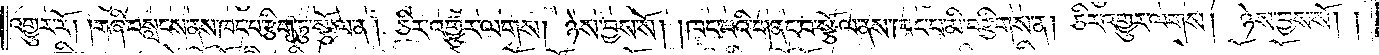འགྱུར་རོ། །གཞི་བསླངས་ནས་ཁང་པ་རྩིག་ཏུ་སྩོལ་ན། ཅིར་འགྱུར་ལགས། ཉེས་བྱས་སོ། །ཁང་པའི་གནང་བ་སྩོལ་ནས་ཁང་པ་མི་བརྩིགས་ན། ཅིར་འགྱུར་ལགས། ཉེས་བྱས་སོ། །
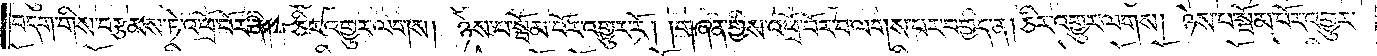བདག་གིས་བརྩམས་ཏེ་འཕྲོ་བོར་ན། ཅིར་འགྱུར་ལགས། ཉེས་པ་སྦོམ་པོར་འགྱུར་རོ། །གཞན་གྱིས་འཕྲོ་བོར་བ་ལགས་པར་བགྱིད་ན། ཅིར་འགྱུར་ལགས། ཉེས་པ་སྦོམ་པོར་འགྱུར་
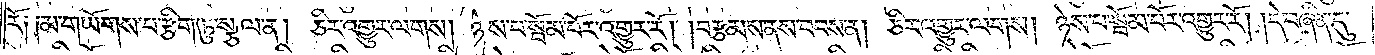རོ༑ ༑མ་གཡོགས་པ་རྩིག་ཏུ་སྩལ་ན། ཅིར་འགྱུར་ལགས། ཉེས་པ་སྦོམ་པོར་འགྱུར་རོ། །བརྩམས་ནས་བབས་ན། ཅིར་འགྱུར་ལགས། ཉེས་པ་སྦོམ་པོར་འགྱུར་རོ། །དེ་བཞིན་དུ་
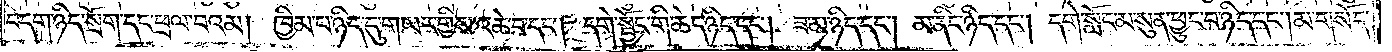བདག་ཉིད་སྲོག་དང་ཕྲལ་བའམ། ཁྱིམ་པ་ཉིད་དུ་གཡར་གྱིས་འཆེ་བ་དང༌། དགེ་སྦྱོང་གི་ཆེད་ཉིད་དང༌། ཟ་མ་ཉིད་དང༌། མ་ནིང་ཉིད་དང༌། དགེ་སློང་མ་སུན་ཕྱུང་བ་ཉིད་དང༌། མ་གསོད་
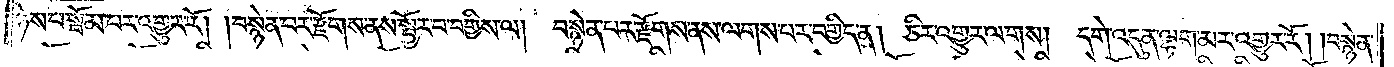ཉེས་པ་སྦོམ་པར་འགྱུར་རོ། །བསྙེན་པར་རྫོགས་ནས་སྦྱོར་བ་བགྱིས་ལ། བསྙེན་པར་རྫོགས་ནས་ལགས་པར་བགྱིད་ན། ཅིར་འགྱུར་ལགས། དགེ་འདུན་ལྷག་མར་འགྱུར་རོ། །བསྙེན་
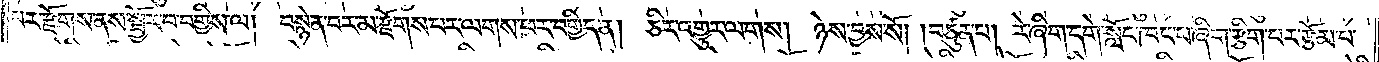པར་རྫོགས་ནས་སྦྱོར་བ་བགྱིས་ལ། བསྙེན་པར་མ་རྫོགས་པར་ལགས་ཕར་བགྱིད་ན། ཅིར་འགྱུར་ལགས། ཉེས་བྱས་སོ། །བཙུན་པ། རེ་ཞིག་དགེ་སློང་ཁང་པ་ཞིག་རྩིག་པར་རྩོམ་པ་
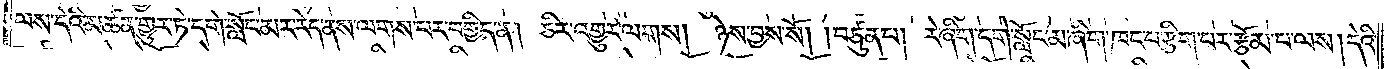ལས་དེའི་མཚན་གྱུར་ཏེ་དགེ་སློང་མར་རེད་ནས་ལགས་པར་བགྱིད་ན། ཅིར་འགྱུར་ལགས། ཉེས་བྱས་སོ། །བཙུན་པ། རེ་ཞིག་དགེ་སློང་མ་ཞིག་ཁང་པ་རྩིག་པར་རྩོམ་པ་ལས། དེའི་
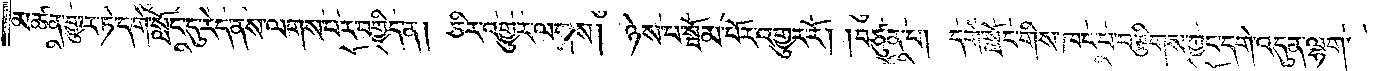མཚན་གྱུར་ཏེ་དགེ་སློང་དུ་རེད་ནས་ལགས་པར་བགྱིད་ན། ཅིར་འགྱུར་ལགས། ཉེས་པ་སྦོམ་པོར་འགྱུར་རོ། །བཙུན་པ། དགེ་སློང་གིས་ཁང་པ་བརྩིགས་ཀྱང་དགེ་འདུན་ལྷག་
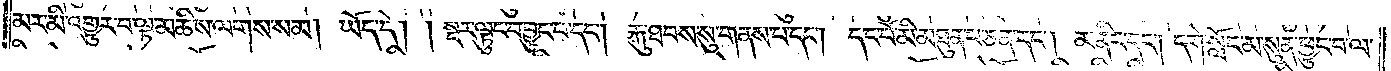མར་མི་འགྱུར་བ་ལྟ་མཆིས་ལགས་སམ། ཡོད་དེ། སྔར་ལྟུང་བ་བྱུང་བ་དང༌།  རྐུ་ཐབས་སུ་གནས་པ་དང༌།  དང་པོ་མི་མཐུན་པ་ཅན་དང༌། མ་ནིང་དང༌། དགེ་སློང་མ་སུན་ཕྱུང་བ་ལ་
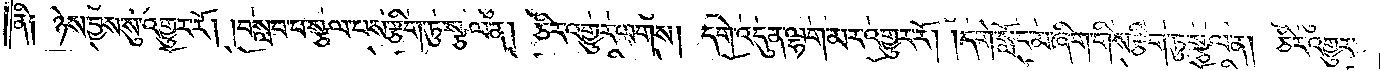ནི༑ ཉེས་བྱས་སུ་འགྱུར་རོ། །བསླབ་པ་སྩལ་པས་རྩིག་ཏུ་སྩལ་ན། ཅིར་འགྱུར་ལགས། དགེ་འདུན་ལྷག་མར་འགྱུར་རོ། །དགེ་སློང་མ་ཞིག་གིས་རྩིག་ཏུ་སྩལ་ན། ཅིར་འགྱུར་
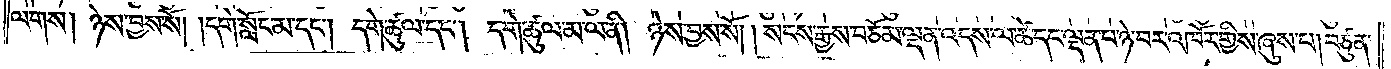ལགས། ཉེས་བྱས་སོ། །དགེ་སློང་མ་དང༌། དགེ་ཚུལ་དང༌། དགེ་ཚུལ་མ་ལ་ནི། ཉེས་བྱས་སོ། །སངས་རྒྱས་བཅོམ་ལྡན་འདས་ལ་ཚེ་དང་ལྡན་པ་ཉེ་བར་འཁོར་གྱིས་ཞུས་པ། བཙུན་
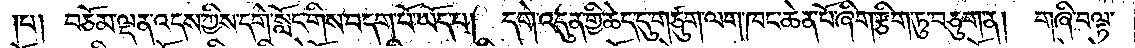པ། བཅོམ་ལྡན་འདས་ཀྱིས་དགེ་སློང་གིས་བདག་པོ་ཡོད་པ། དགེ་འདུན་གྱི་ཆེད་དུ་གཙུག་ལག་ཁང་ཆེན་པོ་ཞིག་རྩིག་ཏུ་བཅུག་ན། གཞི་བལྟ་
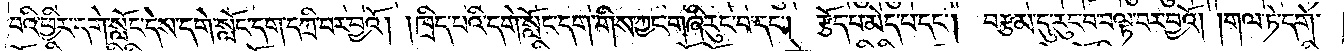བའི་ཕྱིར་དགེ་སློང་དེས་དགེ་སློང་དག་དཀྲི་བར་བྱའོ། །ཁྲིད་པའི་དགེ་སློང་དག་གིས་ཀྱང་གཞི་རུང་བ་དང༌། རྩོད་པ་མེད་པ་དང༌། བརྩམ་དུ་རུང་བ་བལྟ་བར་བྱའོ། །གལ་ཏེ་དགེ་
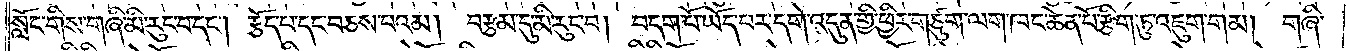སློང་གིས་གཞི་མི་རུང་བ་དང༌། རྩོད་པ་དང་བཅས་པའམ། བརྩམ་དུ་མི་རུང་བ། བདག་པོ་ཡོད་པར་དགེ་འདུན་གྱི་ཕྱིར་གཙུག་ལག་ཁང་ཆེན་པོ་རྩིག་ཏུ་འཇུག་གམ། གཞི་
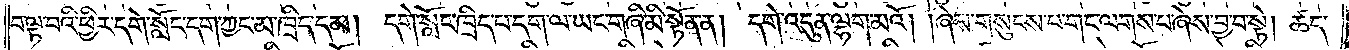བལྟ་བའི་ཕྱིར་དགེ་སློང་དག་ཀྱང་མ་ཁྲིད་དམ། དགེ་སློང་ཁྲིད་པ་དག་ལ་ཡང་གཞི་མི་སྟོན་ན། དགེ་འདུན་ལྷག་མའོ། །ཞེས་གསུངས་པ་གང་ལགས་པ་ཞེས་བྱ་སྟེ། ཚད་
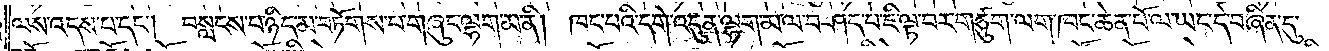ལས་འདས་པ་དང༌། བསླངས་པ་ཉིད་མ་བཏོགས་པ་གཞུང་ལྷག་མ་ནི། ཁང་པའི་དགེ་འདུན་ལྷག་མ་ལ་བཤད་པ་ཇི་ལྟ་བར་གཙུག་ལག་ཁང་ཆེན་པོ་ལ་ཡང་དེ་བཞིན་དུ་
